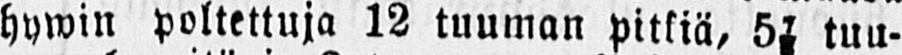hywin poltettuja 12 tuuman pitkiä, 5⅞ tuu-
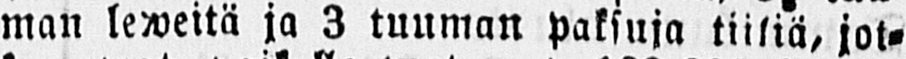man leweitä ja 3 tuuman paksuja tiiliä, jot-
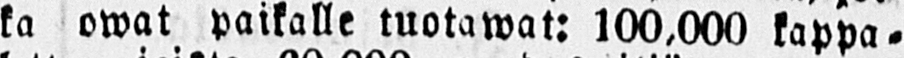ka owat paikalle tuotawat: 100,000 kappa-
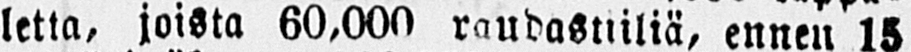letta, joista 60,000 raudastiiliä, ennen 15
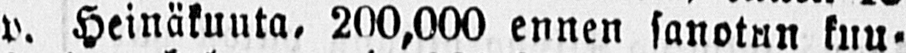v. Heinäkuuta. 200,000 ennen sanotun kuu-
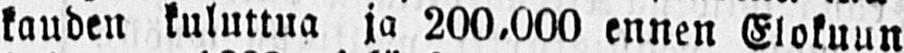kauden kuluttua ja 200.000 ennen Elokuun
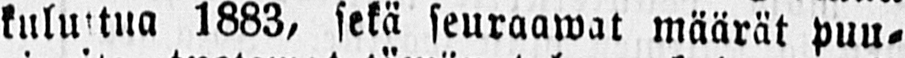kuluttua 1883, sekä seuraawat määrät puu-
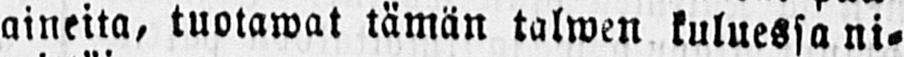aineita, tuotawat tämän talwen kuluessa ni-
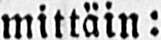mittäin:
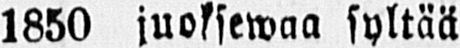1850 juoksewaa syltää
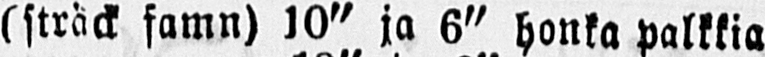(sträck famn) 10" ja 6" honka palkkia
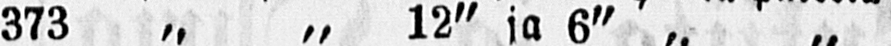373 „ „ 12" ja 6" „ „
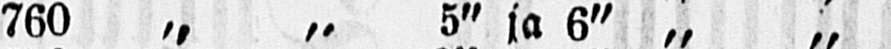760 „ „ 5" ja 6" „ „
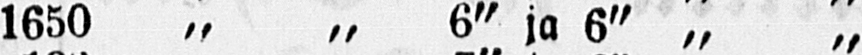1650 „ „ 6" ja 6" „ „
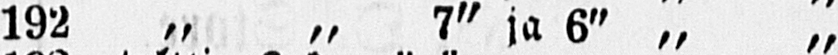192 „ „ 7" ja 6" „ „
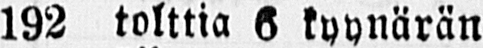192 tolttia 6 kyynärän
